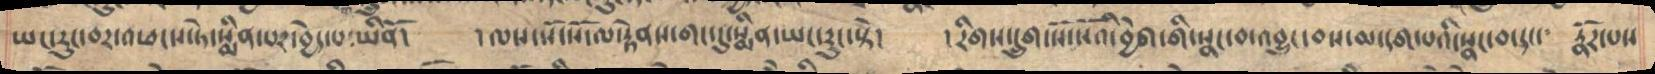ཡང་རུང་བར་འཕངས་ཏེ་སྨིན་པར་བྱེད་པ་ཡིནོ།   ། ལས་སོ་སོ་ལ་རྟེནས་གང་དུ་སྨིན་ཡང་རུང་སྟེ།  །རིགས་དྲུག་སོ་སོའི་བྱེག་གི་སྣ་བ་འབྱུང་བས་མ་དག་པའི་སྣང་བ་དང་༴   རྣོར་པས
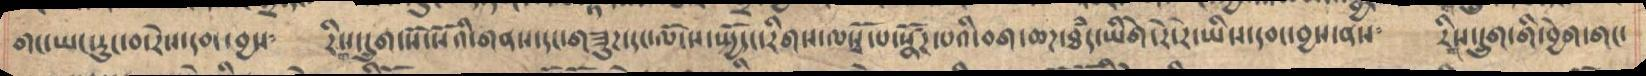གང་ཡང་རུང་བ་རེས་དབང་བྱས༴  རིང་དྲུག་སོ་སོའི་གནས་དང་གཟུཌ་དང་ལོངས་སྤྱོད་རིལས་ལསྭོ་པ་སྣོཌ་པའི་བག་ཆཌ་ཐཾད་ཡིགེ་རེ་རེ་ཡིས་དབང་བྱས་ནས༴  རིས་དྲུག་གི་བྱེག་གང་
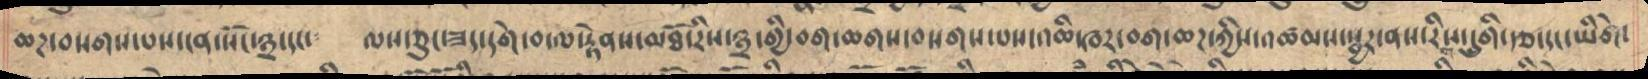ཆཌ་བསགས་པས་ངན་སོང་༣་དང༴  ལས་ཅུང་ཟད་དགེ་བ་ལ་རྟེནས་མཐོ་རིས་༣་གྱི་བག་ཆགས་བསགས་པས་འཆི་ཁར་བག་ཆཌ་ཀྱིས་འཚམས་སྦྱར་ནས་རིས་དྲུགི་རྩ་དང་ཡིགེ་
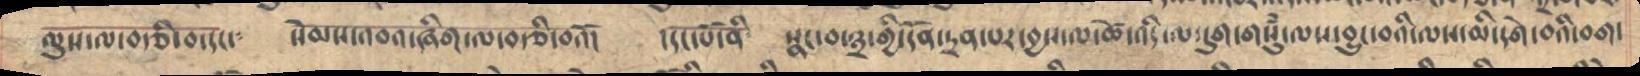ལུས་ལ་བརྩི་བ་དང་༴ སེམས་འབའ་ཞིག་ལ་བརྩི་བའོ། །དང་པོ་ནི༴ སྣང་བ་༣་གྱི་དོན་དྲན་པར་བྱས་ལ་ཚེ་འདི་ལ་དུག་གསུཾ་ལས་བྱུང་བའི་ལས་མི་དགེ་བའི་བག་
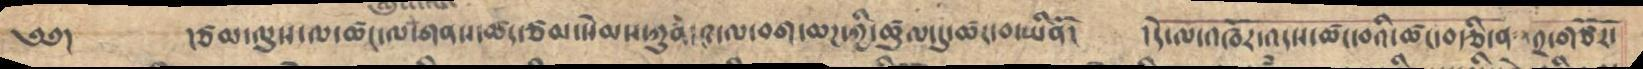༄༅།   རྩམ་ལུས་ལ་ཚང་ལ་གནས་ཚད་ཙམ་སེམས་ཀུན་༢་ལ་བག་ཆཌ་ཀྱི་ཚུལ་དུ་ཚང་བ་ཡིནོ།   །དེ་ལ་འཁོར་འདས་ཚང་བའི་ཚང་བརྩི་ན   ༢་གཙོར་
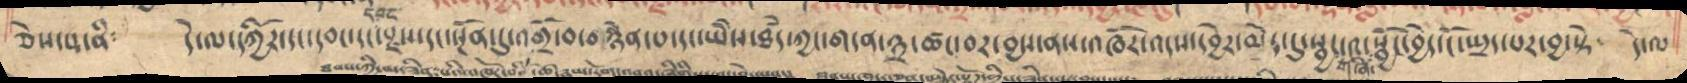ཅེས་པ་ནི༴  དེ་ལ་དཀྱིོར་དང་དབང་དང་སྫས་དང་སྔོན་དུ་འགྲོ་བ་བརྙེན་པ་དང་ཡེེས་ཐཾད་ཀྱང་གདན་༣་ཚང་བར་བྱས་ནས་འཁོར་འདས་དབྱེར་མེད་དུ་སྦྱར་༤་སྦྱོང་བྱེད་ངོ་སྤྲད་པར་བྱ་སྟེ༴  དེ་ལ
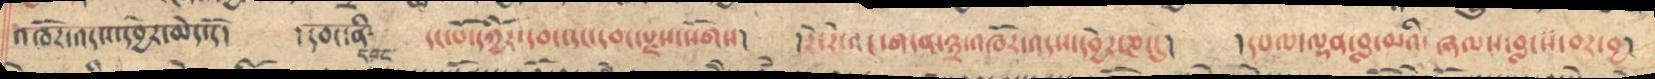འཁོར་འདས་དབྱེར་མེད་དོ།  ། དབང་ནི༴   དང་པོ་དཀྱིོར་དབང་རང་དབང་སྫས་སོགས།   །རེ་རེ་འང་གདན་༣་འཁོར་འདས་དབྱེར་ཎ་དུ།  ། དཔལ་ལྡན་བླ་མའི་ཞལས༴བླངས་བར་བྱ།
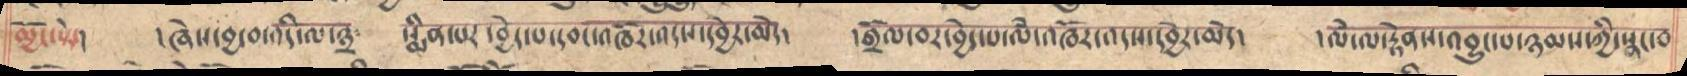ཆྱོང་སྟེ་། །ཞེས་བྱ་བ་འདི་ལ་༣༴ སྨིན་པར་བྱེད་པ་དབང་འཁོར་འདས་དབྱེར་མེད། །གྲོལ་བར་བྱེད་པ་ལཾ་འཁཽར་འདས་དབྱེར་མེད། །ལཾ་ལ་རྟེནས་འབྱུང་པ་ཉམས་ཀྱི་སྣང་བ
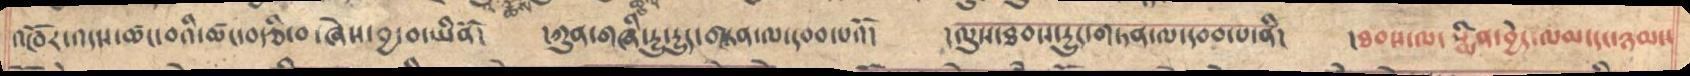འཁོར་འདས་ཚང་བའི་ཚང་བརྩི་བ་ཞེས་བྱ་བ་ཡིནོ༴  །ཀུན་གཞི་དུ་དྱུད་བསྙན་ལ་དབབ་པའོ།  ། ལུས་ཐབས་རུང་གཏན་ལ་དབབ་པ་ནི།  ། ཐབས་ལ་སྨིན་བྱེད་ལམ་དང་ཉམས
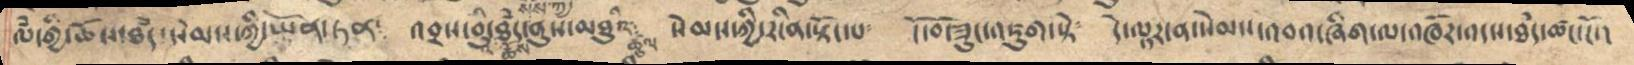ལཾ་གྱི་ཆོས་ཐཾད་སེམས་ཀྱི་ཡོན་ཏན༴  འབྲས་བུའི་ཆོས་ཐཾད་སེམས་ཀྱི་ནུས་མཐུའི་ཚུལ  སེམས་ཀྱི་རི་ན་སྟོང་པ༴  ངོ་བོ་ཟུང་འཇུག་སྟེ༴  དེ་ལྟར་ན་སེམས་འབའ་ཞིག་ལ་འཁོར་འདས་ཐཾད་ཚང་ངོ་།
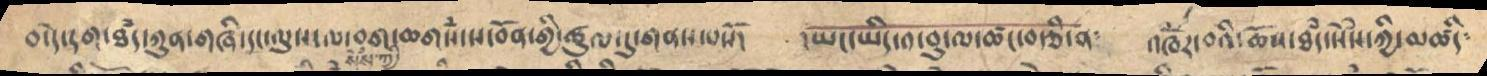བ་དེ་དག་ཐཾད་ཀུན་གཞི་དང་ལུས་ལ་བག་ཆགསཾ་ས་བོན་གྱི་ཚུལ་དུ་གནས་པསོ།  ། ཡང་ཡིད་༡་བུ་ལ་ཚང་བརྩི་ན༴  འཁོར་བའི་ཆོས་ཐཾད་སེཾས་ཀྱི་མཚིད༴
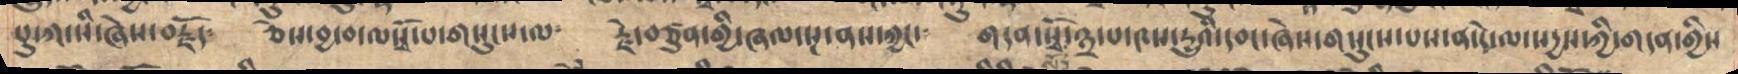པུ་ཀ་སི་ཞེས་བརྗོད༴  ཅེས་བྱ་བ་ལསྭོ་པ་གསུངས་ལ༴  རྗེ་བཙུན་གྱི་ཞལ་སྔ་ནས་ཀྱང་༴  གདན་སྭོ་༣་པ་༤ས་དྱུའི་དབང་ཞེས་གསུངས་པས་ན་དེ་ལ་སདྱས་ཀྱི་གདན་གྱིས
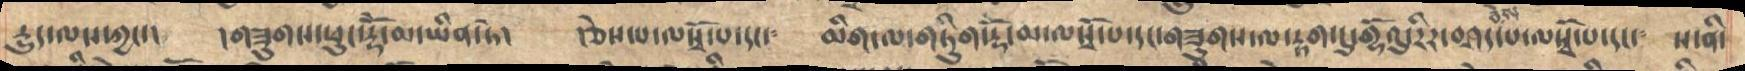དྱུད་ལས་ཀྱང་།  །གཟུགས་ཕུང་རྡོེ་མ་ཡིན་ཏེ།  །ཅེས་པ་ལསྭོ་པ་དང༴   མིག་ལ་གཏིུག་རྡོ་མ་ལསྭོ་པ་དང་གཟུགས་ལ་རྟག་དུ་གྷོའུ་རིར་བཤད་པ་ལསྭོ་པ་དང༴   ས་ནི་
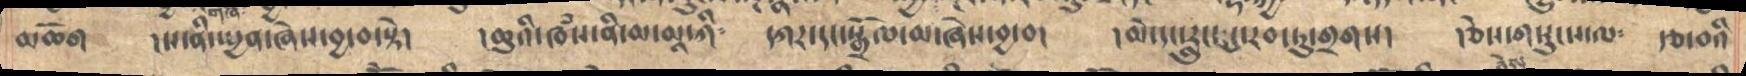མཆོག   །ས་ནི་སྤྱན་ཞེས་བྱ་བ་སྟེ།  ། ཆུའི་ཁཾས་ནི་མ་མཱ་ཀི༴  དཀར་དང་སྒྲོལ་མ་ཞེས་བྱ་བ།   ། མེ་དང་རླུང་དང་རབ་ཏུ་གྲགས།  །ཅེས་གསུངས་ལ༴  རྩ་བའི
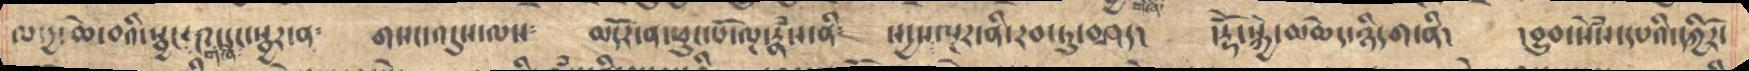ལ་དྱ་ཆེ་བའི་སྦྱང་༤་དང་སྦྱར་ན༴  གསང་འདུས་ལས༴   མདོར་ན་ཕུང་པོ་ལྔ་རྣཾས་ནི༴  སདྱས་ལྔར་ནི་རབ་ཏུ་བཤད།  །རྡོེ་སྐྱེ་མཆེད་ཉིད་ག་ནི།  ། བྱུབ་སེཾས་དཔའི་དཀྱིོར་
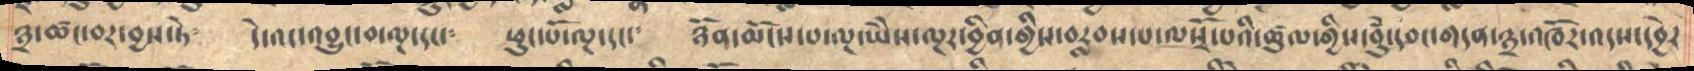༣་ཚང་བར་བྱས་ཏེ༴ དེ་འང་འབྱུང་བ་ལྔ་དང༴  ཕུང་པོ་ལྔ་དང༴  ཉོན་མོངས་པ་ལྔ་ཡེེས་ལྔར་བྱིན་གྱིས་བརླབས་པ་ལསྭོ་པའི་ཚུལ་གྱིས་བུྃ་དབང་གདན་༣་འཁོར་འདས་དབྱེར
